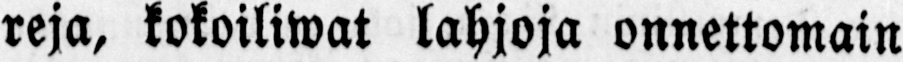reja, kokoiliwat lahjoja onnettomain
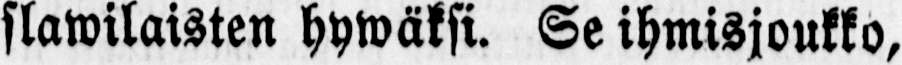slawilaisten hywäksi. Se ihmisjoukko,
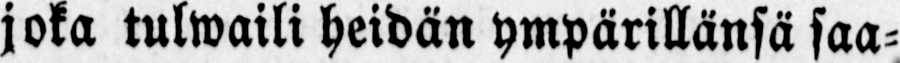joka tulwaili heidän ympärillänsä saa-
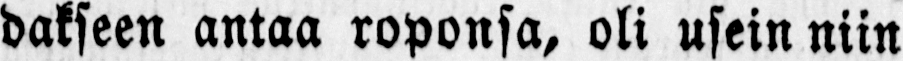dakseen antaa roponsa, oli usein niin
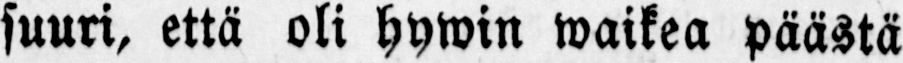suuri, että oli hywin waikea päästä
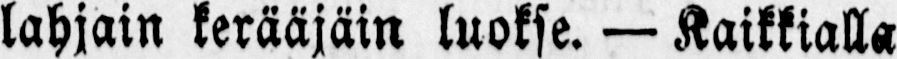lahjain kerääjäin luokse. — Kaikkialla
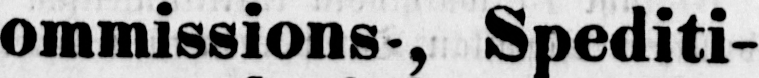Kommissions, Spediti-
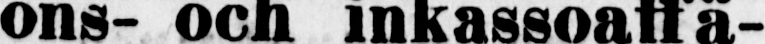ons- och inkassoaffä-
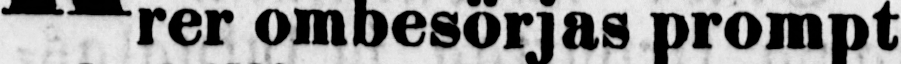rer ombesörjas prompt
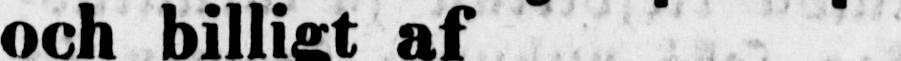och billigt af
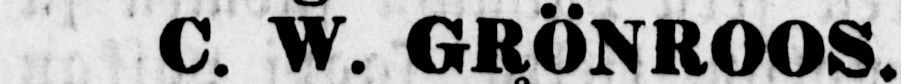C. W. GRÖNROOS.
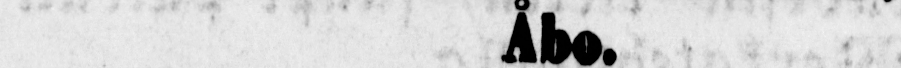Åbo.
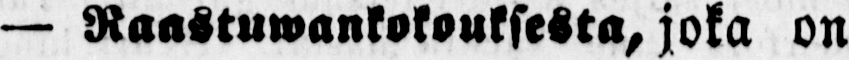— Raastuwankokouksesta, joka on
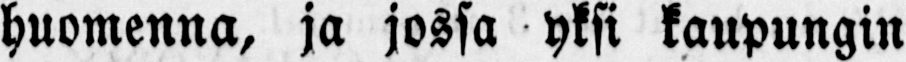huomenna, ja jossa yksi kaupungin
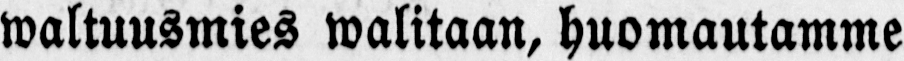waltuusmies walitaan, huomautamme
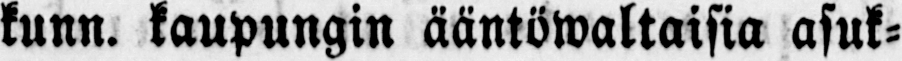kunn. kaupungin ääntöwaltaisia asuk-
